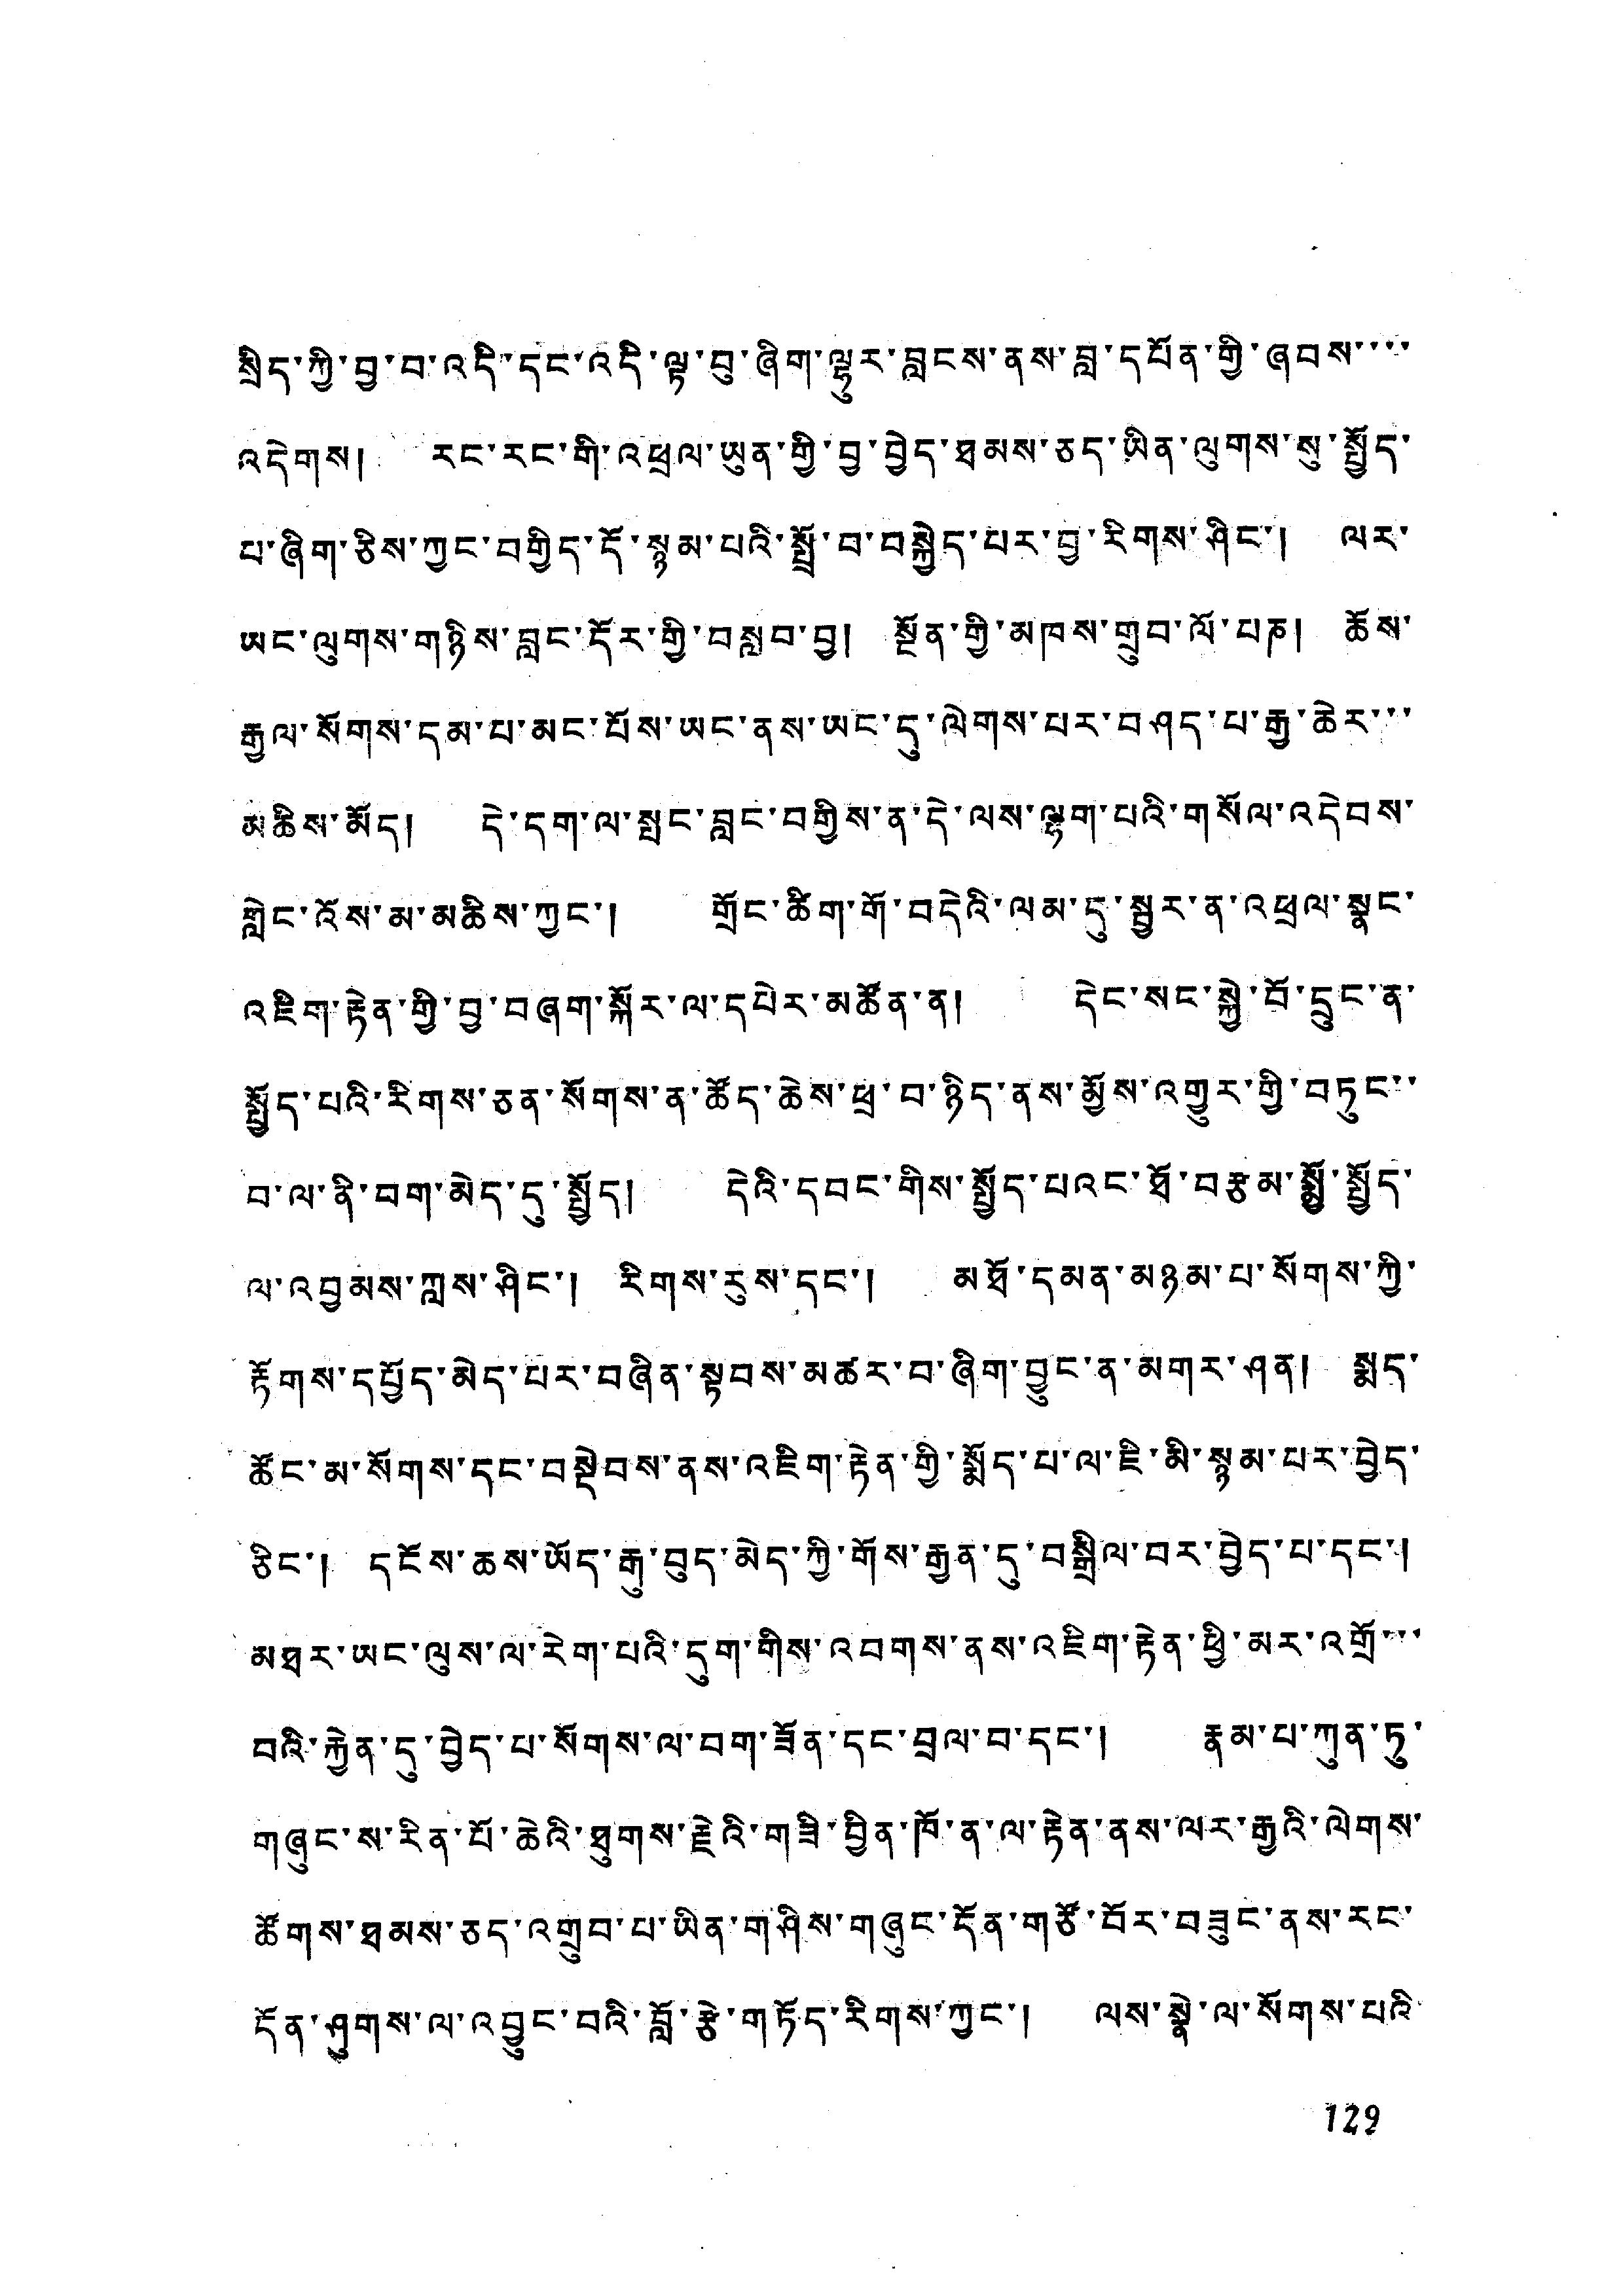སྲིད་ཀྱི་བྱ་བ་འདི་ད་འདི་ལྟ་བུ་ཞིག་ལྷུར་བླངས་ནས་བླ་དཔོན་གྱི་ཞབས་་་་
འདེགས། རང་རང་གི་འཕྲལ་ཡུན་གྱི་བྱ་བྱེད་ཐམས་ཅད་ཡིན་ལུགས་སུ་སྤྱོད་
པ་ཞིག་ཅིས་ཀྱང་བགྱིད་དོ་སྙམ་པའི་སྤྲོ་བ་བསྐྱེད་པར་བྱ་རིགས་ཤིང་། ལར་
ཡང་ལུགས་གཉིས་བླང་དོར་གྱི་བསླབ་བྱ། སྔོན་གྱི་མཁས་གྲུབ་ལོ་པཎ། ཆོས་
རྒྱལ་སོགས་དམ་པ་མང་པོས་ཡང་ནས་ཡང་དུ་ལེགས་པར་བཤད་པ་རྒྱ་ཆེར་་་
མཆིས་མོད། དེ་དག་ལ་སྤང་བླང་བགྱིས་ན་དེ་ལས་ལྷག་པའི་གསོལ་འདེབས་
གླེང་འོས་མ་མཆིས་ཀྱང་། གྲོང་ཚིག་གོ་བདེའི་ལམ་དུ་སྦྱར་ན་འཕྲལ་སྣང་
འཇིག་རྟེན་གྱི་བྱ་བཞག་སྐོར་ལ་དཔེར་མཚོན་ན། དེང་སང་སྐྱེ་བོ་དྲུང་ན་་
སྤྱོད་པའི་རིགས་ཅན་སོགས་ན་ཚོད་ཆེས་ཕྲ་བ་ཉིད་ནས་མྱོས་འགྱུར་གྱི་བཏུང་་
བ་ལ་ནི་བག་མེད་དུ་སྤྱོད། དེའི་དབང་གིས་སྤྱོད་པའང་ཐོ་བརྩམ་སྨྱོ་སྤྱོད་
ལ་འབྱམས་ཀླས་ཤིང་། རིགས་རུས་དང་། མཐོ་དམན་མཉམ་པ་སོགས་ཀྱི་
རྟོགས་དཔྱོད་མེད་པར་བཞིན་སྟབས་མཚར་བ་ཞིག་བྱུང་ན་མགར་ཤན། སྨད་
ཚོང་མ་སོགས་དང་བསྡེབས་ནས་འཇིག་རྟེན་གྱི་སྨོད་པ་ལ་ཇི་མི་སྙམ་པར་བྱེད་
ཅིང་། དངོས་ཆས་ཡོད་རྒུ་བུད་མེད་ཀྱི་གོས་རྒྱུན་དུ་བསྒྲིལ་བར་བྱེད་པ་དང་།
མཐར་ཡང་ལུས་ལ་རེག་པའི་དུག་གིས་འབུགས་ནས་འཇིག་རྟེན་ཕྱི་མར་འགྲོ་་་
བའི་རྐྱེན་དུ་བྱེད་པ་སོགས་ལ་བག་ཟོན་དང་བྲལ་བ་དང་། རྣམ་པ་ཀུན་ཏུ་
གཞུང་ས་རིན་པོ་ཆེའི་ཐུགས་རྗེའི་གཟི་བྱིན་ཁོ་ན་ལ་རྟེན་ནས་ལར་རྒྱའི་ལེགས་
ཚོགས་ཐམས་ཅད་འགྲུབ་པ་ཡིན་གཤིས་གཞུང་དོན་གཙོ་བོར་བཟུང་ནས་རང་
དོན་ཤུགས་ལ་འབྱུང་བའི་བློ་རྩེ་གཏོད་རིགས་ཀྱང་། ལས་སྣེ་ལ་སོགས་པའི་
128
